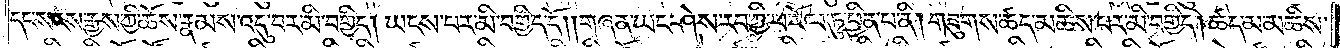དང་སངས་རྒྱས་ཀྱི་ཆོས་རྣམས་འདུ་བར་མི་བགྱིད། ཡངས་པར་མི་བགྱིད་དོ། །གཞན་ཡང་ཤེས་རབ་ཀྱི་ཕ་རོལ་ཏུ་ཕྱིན་པ་ནི། གཟུགས་ཚད་མཆིས་པར་མི་བགྱིད། ཚད་མ་མཆིས་
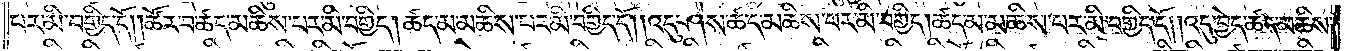པར་མི་བགྱིད་དོ། །ཚོར་བ་ཚད་མཆིས་པར་མི་བགྱིད། ཚད་མ་མཆིས་པར་མི་བགྱིད་དོ། །འདུ་ཤེས་ཚད་མཆིས་པར་མི་བགྱིད། ཚད་མ་མཆིས་པར་མི་བགྱིད་དོ། །འདུ་བྱེད་ཚད་མཆིས་
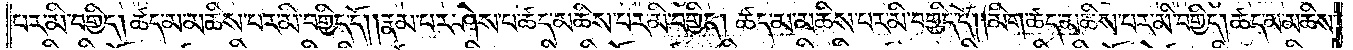པར་མི་བགྱིད། ཚད་མ་མཆིས་པར་མི་བགྱིད་དོ། །རྣམ་པར་ཤེས་པ་ཚད་མཆིས་པར་མི་བགྱིད། ཚད་མ་མཆིས་པར་མི་བགྱིད་དོ། །མིག་ཚད་མཆིས་པར་མི་བགྱིད། ཚད་མ་མཆིས་
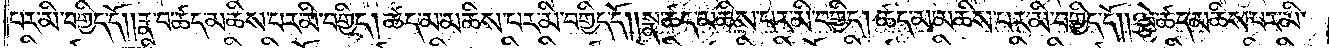པར་མི་བགྱིད་དོ། །རྣ་བ་ཚད་མཆིས་པར་མི་བགྱིད། ཚད་མ་མཆིས་པར་མི་བགྱིད་དོ། །སྣ་ཚད་མཆིས་པར་མི་བགྱིད། ཚད་མ་མཆིས་པར་མི་བགྱིད་དོ། །ལྕེ་ཚད་མཆིས་པར་མི་
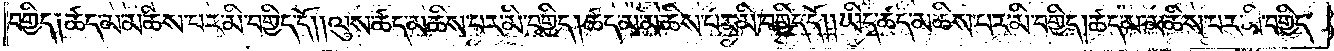བགྱིད༑ ཚད་མཆིས་པར་མི་བགྱིད་དོ། །ལུས་ཚད་མཆིས་པར་མི་བགྱིད། ཚད་མ་མཆིས་པར་མི་བགྱིད་དོ། །ཡིད་ཚད་མཆིས་པར་མི་བགྱིད། ཚད་མ་མཆིས་པར་མི་བགྱིད་
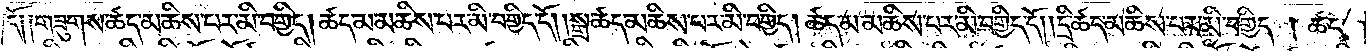དོ༑ ༑གཟུགས་ཚད་མཆིས་པར་མི་བགྱིད། ཚད་མ་མཆིས་པར་མི་བགྱིད་དོ། །སྒྲ་ཚད་མཆིས་པར་མི་བགྱིད། ཚད་མ་མཆིས་པར་མི་བགྱིད་དོ། །དྲི་ཚད་མཆིས་པར་མི་བགྱིད། ཚད་
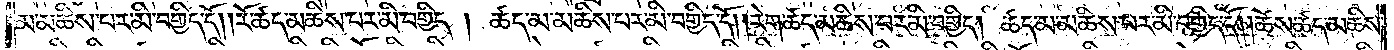མ་མཆིས་པར་མི་བགྱིད་དོ། །རོ་ཚད་མཆིས་པར་མི་བགྱིད། ཚད་མ་མཆིས་པར་མི་བགྱིད་དོ། །རེག་ཚད་མཆིས་པར་མི་བགྱིད། ཚད་མ་མཆིས་པར་མི་བགྱིད་དོ། །ཆོས་ཚད་མཆིས་
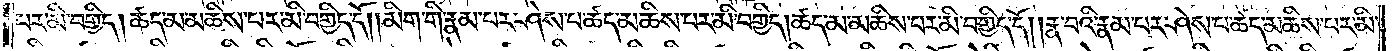པར་མི་བགྱིད། ཚད་མ་མཆིས་པར་མི་བགྱིད་དོ། །མིག་གི་རྣམ་པར་ཤེས་པ་ཚད་མཆིས་པར་མི་བགྱིད། ཚད་མ་མཆིས་པར་མི་བགྱིད་དོ། །རྣ་བའི་རྣམ་པར་ཤེས་པ་ཚད་མཆིས་པར་མི་
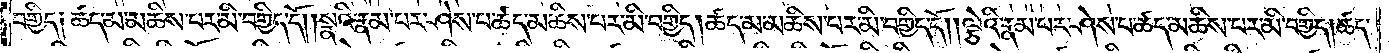བགྱིད༑ ཚད་མ་མཆིས་པར་མི་བགྱིད་དོ། །སྣའི་རྣམ་པར་ཤེས་པ་ཚད་མཆིས་པར་མི་བགྱིད། ཚད་མ་མཆིས་པར་མི་བགྱིད་དོ། །ལྕེའི་རྣམ་པར་ཤེས་པ་ཚད་མཆིས་པར་མི་བགྱིད། ཚད་
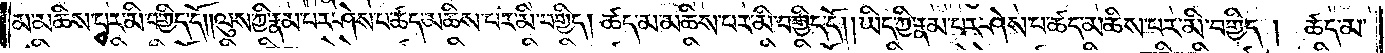མ་མཆིས་པར་མི་བགྱིད་དོ། །ལུས་ཀྱི་རྣམ་པར་ཤེས་པར་ཚད་མཆིས་པར་མི་བགྱིད། ཚད་མ་མཆིས་པར་མི་བགྱིད་དོ། །ཡིད་ཀྱི་རྣམ་པར་ཤེས་པ་ཚད་མཆིས་པར་མི་བགྱིད། ཚད་མ་
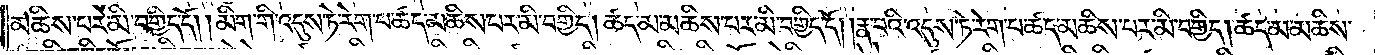མཆིས་པར་མི་བགྱིད་དོ། །མིག་གི་འདུས་ཏེ་རེག་པ་ཚད་མཆིས་པར་མི་བགྱིད། ཚད་མ་མཆིས་པར་མི་བགྱིད་དོ། །རྣ་བའི་འདུས་ཏེ་རེག་པ་ཚད་མཆིས་པར་མི་བགྱིད། ཚད་མ་མཆིས་
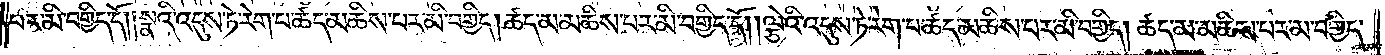པར་མི་བགྱིད་དོ། །སྣའི་འདུས་ཏེ་རེག་པ་ཚད་མཆིས་པར་མི་བགྱིད། ཚད་མ་མཆིས་པར་མི་བགྱིད་དོ། །ལྕེའི་འདུས་ཏེ་རེག་པ་ཚད་མཆིས་པར་མི་བགྱིད། ཚད་མ་མཆིས་པར་མ་བགྱིད་
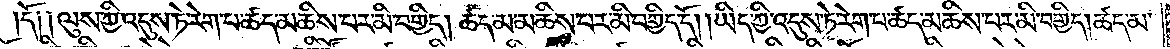དོ༑ ༑ལུས་ཀྱི་འདུས་ཏེ་རེག་པ་ཚད་མཆིས་པར་མི་བགྱིད། ཚད་མ་མཆིས་པར་མི་བགྱིད་དོ། །ཡིད་ཀྱི་འདུས་ཏེ་རེག་པ་ཚད་མཆིས་པར་མི་བགྱིད། ཚད་མ་
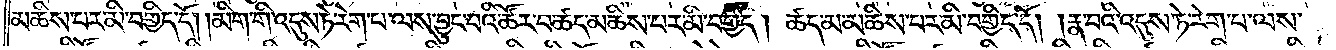མཆིས་པར་མི་བགྱིད་དོ། །མིག་གི་འདུས་ཏེ་རེག་པ་ལས་བྱུང་བའི་ཚོར་བ་ཚད་མཆིས་པར་མི་བགྱིད། ཚད་མ་མཆིས་པར་མི་བགྱིད་དོ། །རྣ་བའི་འདུས་ཏེ་རེག་པ་ལས་
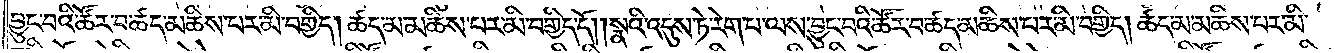བྱུང་བའི་ཚོར་བ་ཚད་མཆིས་པར་མི་བགྱིད། ཚད་མ་མཆིས་པར་མི་བགྱིད་དོ། །སྣའི་འདུས་ཏེ་རེག་པ་ལས་བྱུང་བའི་ཚོར་བ་ཚད་མཆིས་པར་མི་བགྱིད། ཚད་མ་མཆིས་པར་མི་
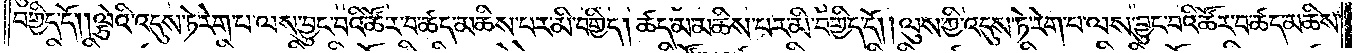བགྱིད་དོ། །ལྕེའི་འདུས་ཏེ་རེག་པ་ལས་བྱུང་བའི་ཚོར་བ་ཚད་མཆིས་པར་མི་བགྱིད། ཚད་མ་མཆིས་པར་མི་བགྱིད་དོ། །ལུས་ཀྱི་འདུས་ཏེ་རེག་པ་ལས་བྱུང་བའི་ཚོར་བ་ཚད་མཆིས་
